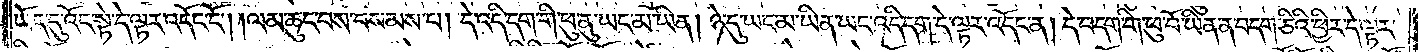ཡོད་དུ་འོང་སྟེ་དེ་ལྟར་འདོང་ངོ༌། །ལམ་ཆུང་བས་བསམས་པ། དེ་འདི་དག་གི་ཕུ་ནུ་ཡང་མ་ཡིན། ཉེ་དུ་ཡང་མ་ཡིན་ཡང་འདི་དག་དེ་ལྟར་འདོང་ན། དེ་བདག་གི་ཕུ་བོ་ཡིན་ན་བདག་ཅིའི་ཕྱིར་དེ་ལྟར་
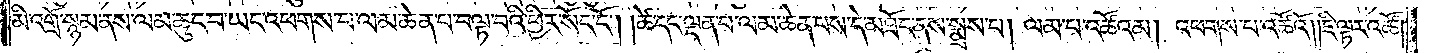མི་འགྲོ་སྙམ་ནས་ལམ་ཆུང་བ་ཡང་འཕགས་པ་ལམ་ཆེན་པ་བལྟ་བའི་ཕྱིར་སོང་ངོ༌། །ཚེ་དང་ལྡན་པ་ལམ་ཆེན་པས་དེ་མཐོང་ནས་སྨྲས་པ། ལམ་པ་འཚོའམ། འཕགས་པ་འཚོའོ། །ཇི་ལྟར་འཚོ།
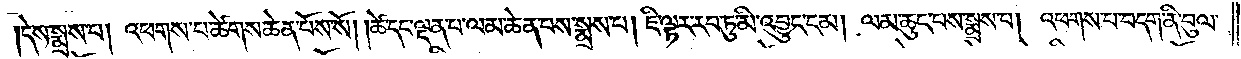དེས་སྨྲས་པ། འཕགས་པ་ཚེགས་ཆེན་པོས་སོ། །ཚེ་དང་ལྡན་པ་ལམ་ཆེན་པས་སྨྲས་པ། ཇི་ལྟར་རབ་ཏུ་མི་འབྱུང་ངམ། ལམ་ཆུང་བས་སྨྲས་པ། འཕགས་པ་བདག་ནི་བུལ་
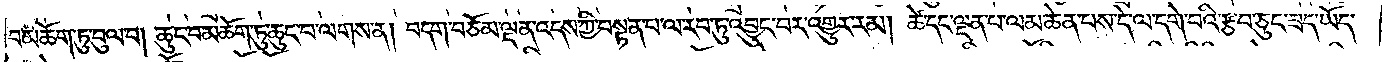བ་མཆོག་ཏུ་བུལ་བ། ཆུང་བ་མཆོག་ཏུ་ཆུང་བ་ལགས་ན། བདག་བཅོམ་ལྡན་འདས་ཀྱི་བསྟན་པ་ལ་རབ་ཏུ་འབྱུང་བར་འགྱུར་རམ། ཚེ་དང་ལྡན་པ་ལམ་ཆེན་པས་དེ་ལ་དགེ་བའི་རྩ་བ་ཅུང་ཟད་ཡོད་
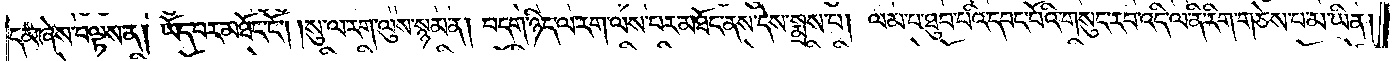དམ་ཞེས་བལྟས་ན། ཡོད་པར་མཐོང་ངོ༌། །སུ་ལ་རག་ལུས་སྙམ་ན། བདག་ཉིད་ལ་རག་ལས་པར་མཐོང་ནས་དེས་སྨྲས་པ། ལམ་པ་ཐུབ་པའི་དབང་པོའི་གསུང་རབ་འདི་ལ་ནི་རིག་གཅེས་པ་མ་ཡིན།
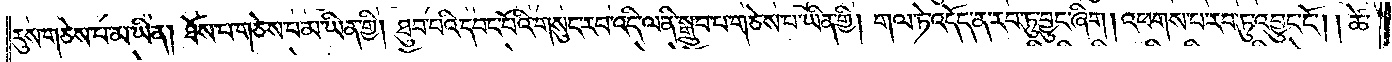རུས་གཅེས་པ་མ་ཡིན། ཐོས་པ་གཅེས་པ་མ་ཡིན་གྱི། ཐུབ་པའི་དབང་པོའི་གསུང་རབ་འདི་ལ་ནི་སྒྲུབ་པ་གཅེས་པ་ཡིན་གྱི། གལ་ཏེ་འདོད་ན་རབ་ཏུ་བྱུང་ཞིག། འཕགས་པ་རབ་ཏུ་འབྱུང་ངོ༌། །ཚེ་
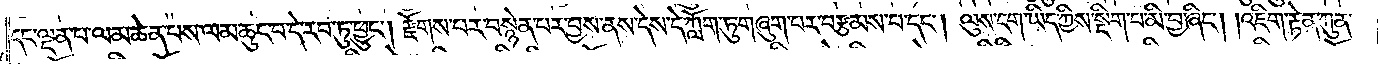དང་ལྡན་པ་ལམ་ཆེན་པས་ལམ་ཆུང་བ་དེ་རབ་ཏུ་ཕྱུང༌། རྫོགས་པར་བསྙེན་པར་བྱས་ནས་དེས་དེ་ཀློག་ཏུ་གཞུག་པར་བརྩམས་པ་དང༌། ལུས་ངག་ཡིད་ཀྱིས་སྡིག་པ་མི་བྱ་ཞིང༌། །འཇིག་རྟེན་ཀུན་
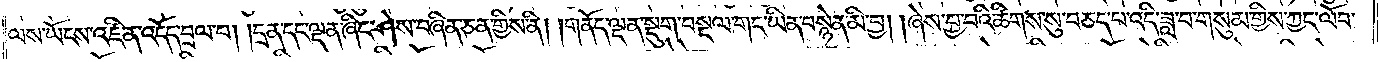ལས་ཡོངས་འཛིན་འདོད་བྲལ་བ། །དྲན་དང་ལྡན་ཞིང་ཤེས་བཞིན་ཅན་གྱིས་ནི། །གནོད་ལྡན་སྡུག་བསྔལ་གང་ཡིན་བསྙེན་མི་བྱ། །ཞེས་བྱ་བའི་ཚིགས་སུ་བཅད་པ་འདི་ཟླ་བ་གསུམ་གྱིས་ཀྱང་ལོབ་
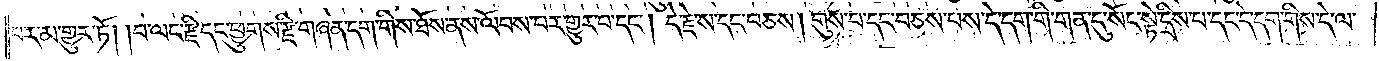པར་མ་གྱུར་ཏོ། །བ་ལང་རྫི་དང་ཕྱུགས་རྫི་གཞན་དག་གིས་ཐོས་ནས་ལོབས་པར་གྱུར་པ་དང༌། དེ་རྗེ་ས་དང་བཅས། གུས་པ་དང་བཅས་པས་དེ་དག་གི་གན་དུ་སོང་སྟེ་དྲིས་པ་དང་དེ་དག་གིས་དེ་ལ་
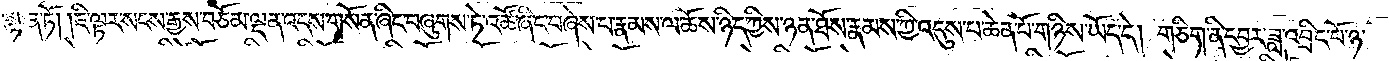བསྟན་ཏོ། །ཇི་ལྟར་སངས་རྒྱས་བཅོམ་ལྡན་འདས་གསོན་ཞིང་བཞུགས་ཏེ་འཚོ་ཞིང་བཞེས་པ་རྣམས་ལ་ཆོས་ཉིད་ཀྱིས་ཉན་ཐོས་རྣམས་ཀྱི་འདུས་པ་ཆེན་པོ་གཉིས་ཡོད་དེ། གཅིག་ནི་དབྱར་ཟླ་འབྲིང་པོ་ཉ་
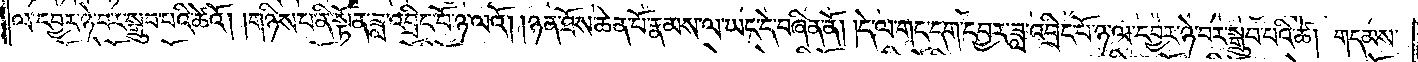ལ་དབྱར་ཉེ་བར་སྒྲུབ་པའི་ཚེའོ། །གཉིས་པ་ནི་སྟོན་ཟླ་འབྲིང་པོ་ཉ་ལའོ། །ཉན་ཐོས་ཆེན་པོ་རྣམས་ལ་ཡང་དེ་བཞིན་ནོ། །དེ་ལ་གང་དག་དབྱར་ཟླ་འབྲིང་པོ་ཉ་ལ་དབྱར་ཉེ་བར་སྒྲུབ་པའི་ཚེ། གདམས་
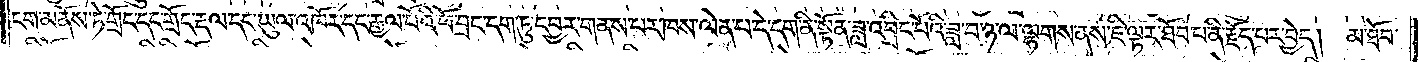ངག་མནོས་ཏེ་གྲོང་དང་གྲོང་རྡལ་དང་ཡུལ་འཁོར་དང་རྒྱལ་པོའི་ཕོ་བྲང་དག་ཏུ་དབྱར་གནས་པར་ཁས་ལེན་པ་དེ་དག་ནི་སྟོན་ཟླ་འབྲིང་པོའི་ཟླ་བ་ཉ་ལ་ལྷགས་ནས་ཇི་ལྟར་ཐོབ་པ་ནི་རྗོད་པར་བྱེད། མ་ཐོབ་
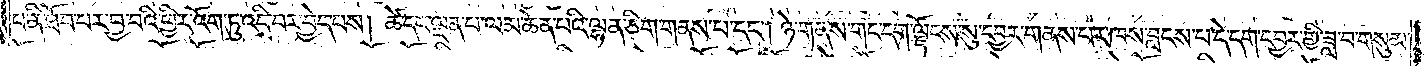པ་ནི་ཐོབ་པར་བྱ་བའི་ཕྱིར་འོག་ཏུ་འདྲི་བར་བྱེད་པས། ཚེ་དང་ལྡན་པ་ལ་མ་ཆེན་པའི་ལྷན་ཅིག་གནས་པ་དང༌། ཉེ་གནས་གང་དག་ལྗོངས་སུ་དབྱར་གནས་པར་ཁས་བླངས་པ་དེ་དག་དབྱར་གྱི་ཟླ་བ་གསུམ་
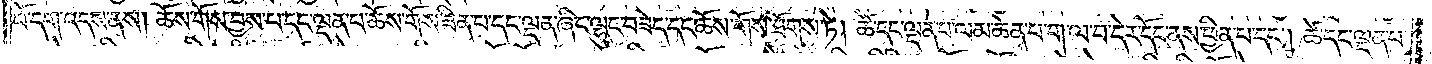པོ་དག་འདས་ནས། ཆོས་གོས་བྱས་པ་དང་ལྡན་པ་ཆོས་གོས་ཟིན་པ་དང་ལྡན་ཞིང་ལྷུང་བཟེད་དང་ཆོས་གོས་ཐོགས་ཏེ། ཚེ་དང་ལྡན་པ་ལམ་ཆེན་པ་ག་ལ་བ་དེར་དོང་ནས་ཕྱིན་པ་དང༌། ཚེ་དང་ལྡན་པ་
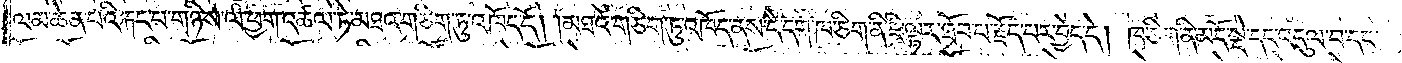ལམ་ཆེན་པའི་རྐང་པ་གཉིས་ལ་ཕྱག་འཚལ་ཏེ་མཐའ་གཅིག་ཏུ་འཁོད་དོ། །མཐའ་གཅིག་ཏུ་འཁོད་ནས་དེ་དག་ཁ་ཅིག་ནི་ཇི་ལྟར་ཐོབ་པ་རྗོད་པར་བྱེད་དེ། ཁ་ཅིག་ནི་མདོ་སྡེ་དང་འདུལ་བ་དང་
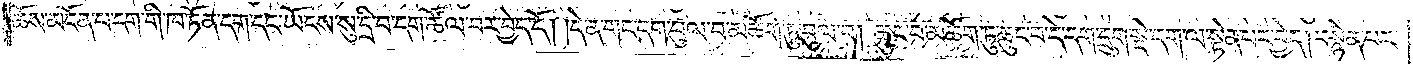ཆོས་མངོན་པ་དག་གི་ཁ་ཏོན་དག་དང་ཡོངས་སུ་དྲི་བ་དག་ཚོལ་བར་བྱེད་དོ། །དེ་ན་གང་དག་བུལ་བ་མཆོག་ཏུ་བུལ་བ། ཆུང་བ་མཆོག་ཏུ་ཆུང་བ་དེ་དག་དྲུག་སྡེ་དག་ལ་སྟེན་པར་བྱེད། བསྙེན་པར་
